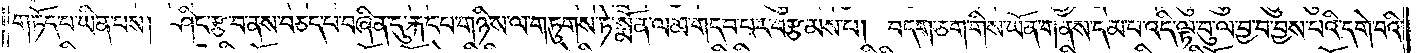གཏོད་པ་ཡིན་པས། ཤིང་རྩ་བ་ནས་བཅད་པ་བཞིན་དུ་རྐང་པ་གཉིས་ལ་གཏུགས་ཏེ་སྨོན་ལམ་གདབ་པར་བརྩམས་པ། བདག་ཅག་གིས་ཡོན་གནས་དམ་པ་འདི་ལྟ་བུ་ལ་བྱ་བ་བྱས་པའི་དགེ་བའི་
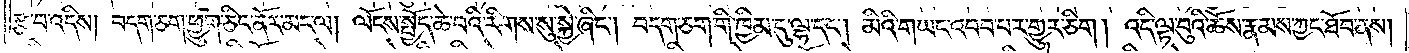རྩ་བ་འདིས། བདག་ཅག་ཕྱུག་ཅིང་ནོར་མང་ལ། ལོངས་སྤྱོད་ཆེ་བའི་རིགས་སུ་སྐྱེ་ཞིང༌། བདག་ཅག་གི་ཁྱིམ་དུ་ལྷ་དང༌། མིའི་གཡང་འབབ་པར་གྱུར་ཅིག །འདི་ལྟ་བུའི་ཆོས་རྣམས་ཀྱང་ཐོབ་ནས།
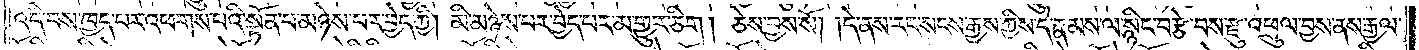འདི་བས་ཁྱད་པར་འཕགས་པའི་སྟོན་པ་མཉེས་པར་བྱེད་ཀྱི། མི་མཉེས་པར་བྱེད་པར་མ་གྱུར་ཅིག །ཅེས་བྱས་སོ། །དེ་ནས་རང་སངས་རྒྱས་ཀྱིས་དེ་རྣམས་ལ་སྙིང་བརྩེ་བས་རྫུ་འཕྲུལ་བྱས་ནས་རྒྱལ་
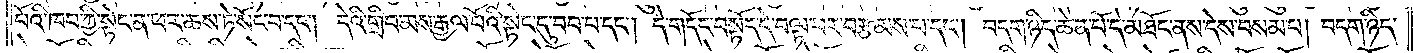པོའི་ཁབ་ཀྱི་སྟེང་ན་ཕར་ཆས་ཏེ་སོང་བ་དང༌། དེའི་གྲིབ་མས་རྒྱལ་པོའི་སྟེང་དུ་བབ་པ་དང༌། དེ་གདོང་བསྟོད་དེ་བལྟ་བར་བརྩམས་པ་དང༌། བདག་ཉིད་ཆེན་པོ་དེ་མཐོང་ནས་དེས་བསམ་པ། བདག་ཉིད་
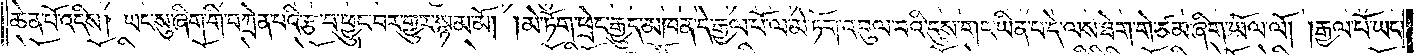ཆེན་པོ་འདིས། ཡང་སུ་ཞིག་གི་བཀྲེན་པའི་རྩ་བ་ཕྱུང་བར་གྱུར་སྙམ་མོ། །མེ་ཏོག་ཕྲེང་རྒྱུད་མཁན་དེ་རྒྱལ་པོ་ལ་མེ་ཏོག་འབུལ་བའི་དུས་གང་ཡིན་པ་དེ་ལས་ཐེག་གེ་ཙམ་ཞིག་ཡོལ་ལོ། །རྒྱལ་པོ་ཡང་
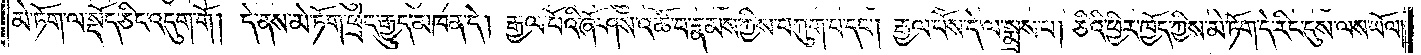མེ་ཏོག་ལ་སྡོད་ཅིང་འདུག་གོ །དེ་ནས་མེ་ཏོག་ཕྲེང་རྒྱུད་མཁན་དེ། རྒྱལ་པོའི་ཞོ་ཤས་འཚོ་བ་རྣམས་ཀྱིས་བཀུག་པ་དང༌། རྒྱལ་པོས་དེ་ལ་སྨྲས་པ། ཅིའི་ཕྱིར་ཁྱོད་ཀྱིས་མེ་ཏོག་དེ་རིང་དུས་ལས་ཡོལ།
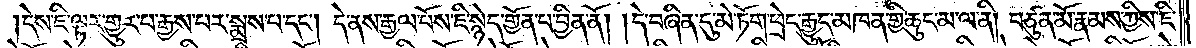དེས་ཇི་ལྟར་གྱུར་པ་རྒྱས་པར་སྨྲས་པ་དང༌། དེ་ནས་རྒྱལ་པོས་ཇི་སྙེད་གྱོན་པ་བྱིན་ནོ། །དེ་བཞིན་དུ་མེ་ཏོག་ཕྲེང་རྒྱུད་མཁན་གྱི་ཆུང་མ་ལ་ནི། བཙུན་མོ་རྣམས་ཀྱིས་ཇི་
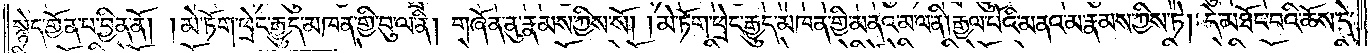སྙེད་གྱོན་པ་བྱིན་ནོ། །མེ་ཏོག་ཕྲེང་རྒྱུད་མཁན་གྱི་བུ་ལ་ནི། གཞོན་ནུ་རྣམས་ཀྱིས་སོ། །མེ་ཏོག་ཕྲེང་རྒྱུད་མཁན་གྱི་མནའ་མ་ལ་ནི། རྒྱལ་པོའི་མནའ་མ་རྣམས་ཀྱིས་ཏེ། དེ་མཐོང་བའི་ཆོས་དེ་
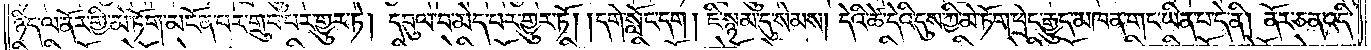ཉིད་ལ་ནོར་གྱི་མེ་ཏོག་མངོན་པར་གྲུབ་པར་གྱུར་ཏེ། དབུལ་བ་མེད་པར་གྱུར་ཏོ། །དགེ་སློང་དག། ཇི་སྙམ་དུ་སེམས། དེའི་ཚེ་དེའི་དུས་ཀྱི་མེ་ཏོག་ཕྲེང་རྒྱུད་མཁན་གང་ཡིན་པ་དེ་ནི། ནོར་ཅན་འདི་
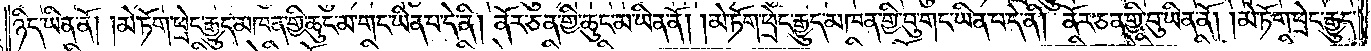ཉིད་ཡིན་ནོ། །མེ་ཏོག་ཕྲེང་རྒྱུད་མཁན་གྱི་ཆུང་མ་གང་ཡིན་པ་དེ་ནི། ནོར་ཅན་གྱི་ཆུང་མ་ཡིན་ནོ། །མེ་ཏོག་ཕྲེང་རྒྱུད་མཁན་གྱི་བུ་གང་ཡིན་པ་དེ་ནི། ནོར་ཅན་གྱི་བུ་ཡིན་ནོ། །མེ་ཏོག་ཕྲེང་རྒྱུད་
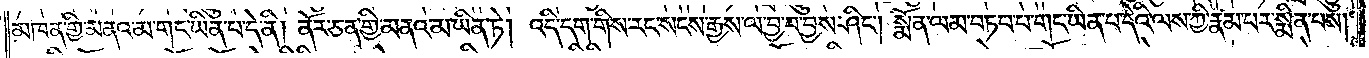མཁན་གྱི་མནའ་མ་གང་ཡིན་པ་དེ་ནི། ནོར་ཅན་གྱི་མནའ་མ་ཡིན་ཏེ། འདི་དག་གིས་རང་སངས་རྒྱས་ལ་བྱ་བ་བྱས་ཤིང༌། སྨོན་ལམ་བཏབ་པ་གང་ཡིན་པ་དེའི་ལས་ཀྱི་རྣམ་པར་སྨིན་པས།
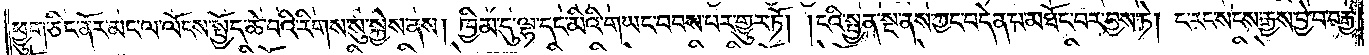ཕྱུག་ཅིང་ནོར་མང་ལ་ལོངས་སྤྱོད་ཆེ་བའི་རིགས་སུ་སྐྱེས་ནས། ཁྱིམ་དུ་ལྷ་དང་མིའི་གཡང་བབས་པར་གྱུར་ཏོ། །ངའི་སྤྱན་སྔ་ནས་ཀྱང་བདེན་པ་མཐོང་བར་བྱས་ཏེ། ང་རང་སངས་རྒྱས་བྱེ་བ་བརྒྱ་
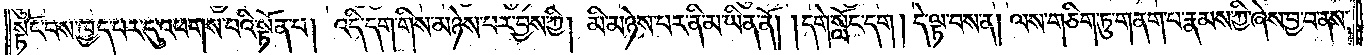སྟོང་བས་ཁྱད་པར་དུ་འཕགས་པའི་སྟོན་པ། འདི་དག་གིས་མཉེས་པར་བྱས་ཀྱི། མི་མཉེས་པར་ནི་མ་ཡིན་ནོ། །དགེ་སློང་དག། དེ་ལྟ་བས་ན། ལས་གཅིག་ཏུ་གནག་པ་རྣམས་ཀྱི་ཞེས་བྱ་བ་ནས་
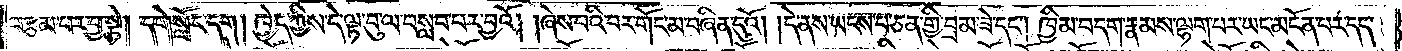བརྩམ་པར་བྱ་སྟེ། དགེ་སློང་དག། ཁྱེད་ཀྱིས་དེ་ལྟ་བུ་ལ་བསླབ་པར་བྱའོ། །ཞེས་པའི་བར་གོང་མ་བཞིན་དུའོ། །དེ་ནས་ཡངས་པ་ཅན་གྱི་བྲམ་ཟེ་དང༌། ཁྱིམ་བདག་རྣམས་ལྷག་པར་ཡང་མངོན་པར་དད་
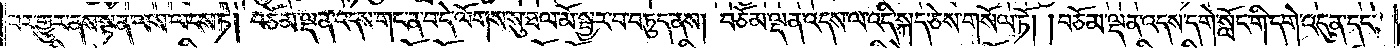པར་གྱུར་ནས་སྟན་ལས་ལངས་ཏེ། བཅོམ་ལྡན་འདས་གང་ན་བ་དེ་ལོགས་སུ་ཐལ་མོ་སྦྱར་བ་བཏུད་ནས། བཅོམ་ལྡན་འདས་ལ་འདི་སྐད་ཅེས་གསོལ་ཏོ། །བཅོམ་ལྡན་འདས་དགེ་སློང་གི་དགེ་འདུན་དང་
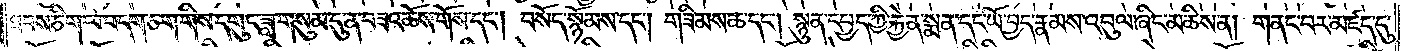ཐབས་ཅིག་ལ་བདག་ཅག་གིས་དགུང་ཟླ་གསུམ་དུ་ན་བཟའ་ཆོས་གོས་དང༌། བསོད་སྙོམས་དང༌། གཟིམས་ཆ་དང༌། སྙུན་དཔྱད་ཀྱི་རྐྱེན་སྨན་དང་ཡོ་བྱད་རྣམས་འབུལ་ཞིང་མཆིས་ན། གནང་བར་མཛད་དུ་
